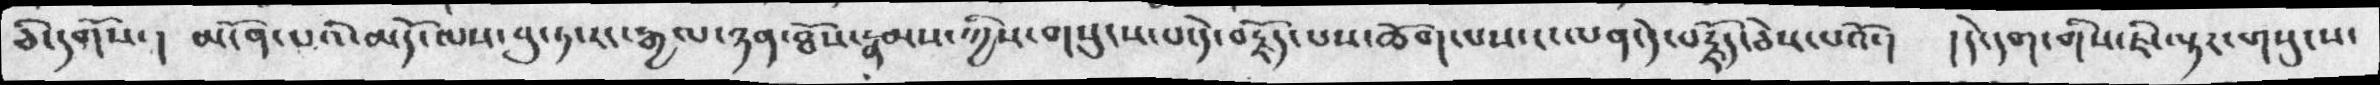ཅི་དགོས་ ། མངོན་པའི་མདོ་ལས་བུ་ཏ་རང་རྒྱལ་ཉན་ཐོས་རྣམས་ཀྱིས་གསུངས་པ་དེ་བརྗོད་པས་ཆོག་པས་ང་ལན་དེ་བརྗོད་ཅེས་པའོ་།   །དེ་དག་གིས་ཇི་ལྟར་གསུངས་
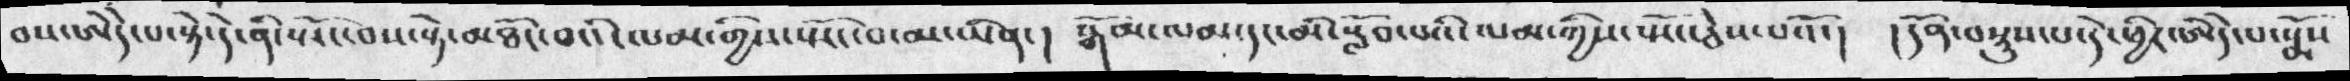བས་ཨེདེ་པ་སྟེ་དེ་ནི་སྤོང་བས་སྟེ་མཐོང་བའི་ལམ་གྱིས་སྤོང་བ་མ་ཡིན་ ། སྒོམ་ལམ་དང་མི་སློབ་པའི་ལམ་ཀྱིས་སྤོང་ཅེས་པའོ་།  །དོན་བསྟུས་པ་དེ་ཕྱིར་ཨེདེ་པ་སྨོས་
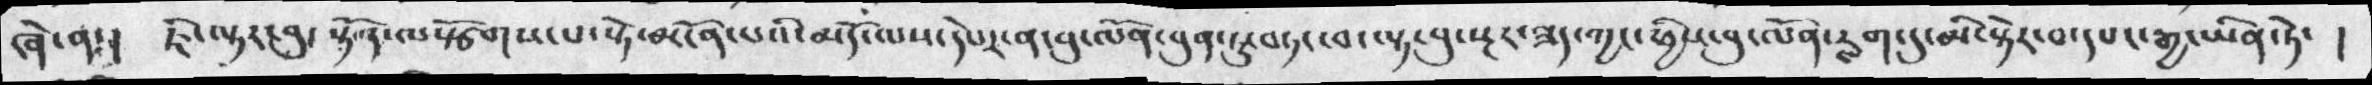ཞེ་ན་། ཇི་ལྟར་བུ་ སྟོན་ལསྩོགས་པ་སྟེ་མངོན་པའི་མདོ་ལས་དཔེར་ན་བུ་ལོན་བུན་ཏུ་བཏང་བ་ལྟ་བུ་སྔར་ཟད་ཀྱང་ཕྱིས་བུ་ལོན་རླག་དུ་མི་སྟེར་བ་དཔང་རྒྱ་ཡིན་ཏེ་ །
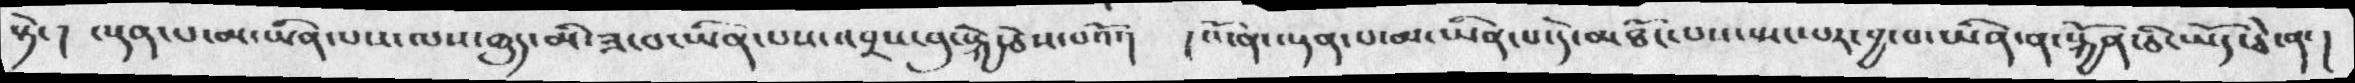སྟེ་། ལྡན་པ་མ་ཡིན་པས་ལས་ཆུད་མི་ཟ་བ་ཡིན་པས་འབྲས་བུ་སྐྱེ་ཅེས་པའོ་།   །འོ་ན་ལྡན་པ་མ་ཡིན་པ་དེ་མཐོང་པས་སྤང་པར་བྱ་བ་ཡིན་ན་སྐྱོན་ཅི་ཡོད་ཅེ་ན་།
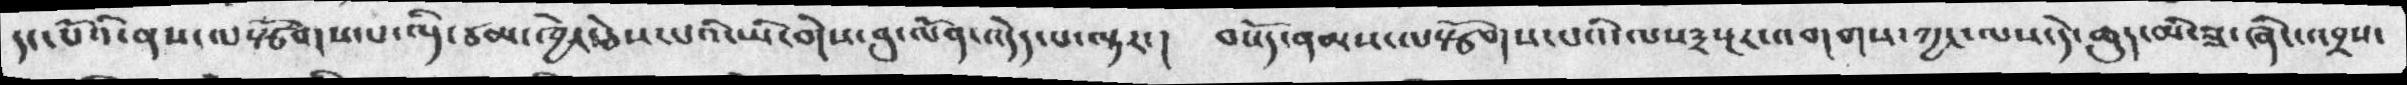དང་པོའི་ནས་ལསྩོགས་པ་འདི་ཙམ་ཁྱེད་ཅེས་པའི་ཡི་གེས་བུ་ལོན་འདེད་པ་ལྟར་།  བསོད་ནམས་ལསྩོགས་པའི་ལས༣སྔར་འགགས་ཀྱང་ལས་དེ་ཆུད་མི་ཟ་ཞིང་འབྲས་
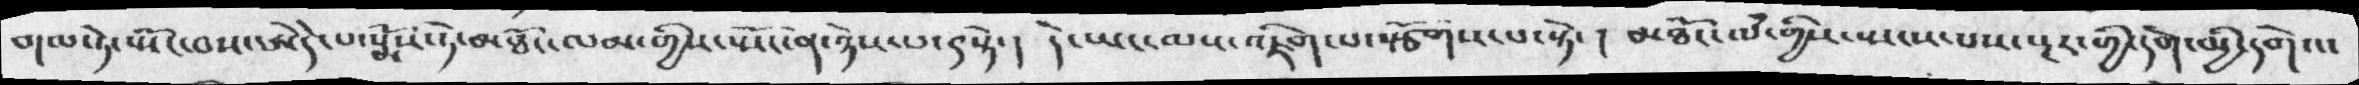གལ་ཏེ་སྤོང་བས་ཨེདེ་པ་སྨོས་ཏེ་མཐོང་ལམ་གྱིས་སྤོང་ན་ཉེས་པ་༩སྟེ་།  དེ་ཡང་ལས་འཇིག་པ་སྩོགས་པ་སྟེ་ ། མཐོང་ལཾ་གྱིས་སྤང་པས་སྔར་གྱི་དགེ་མྱི་དགེའ་
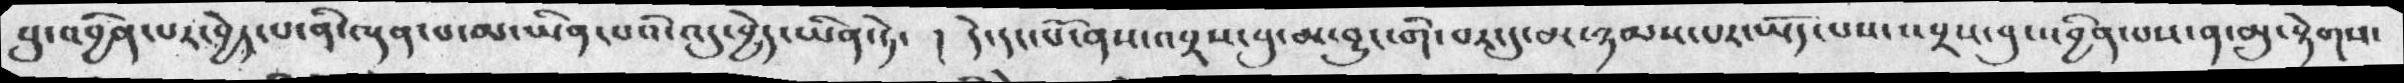བུ་འབྱིན་པར་བྱེད་པ་ནི་ལྡན་པ་ཡིན་པའི་འདུ་བྱེད་ཡིན་ཏེ་།  ། དེ་དང་པོ་ནས་འབྲས་བུ་མ་བྱུང་གི་བར་དུ་མ་ཉམས་པར་ཡོད་པས་འབྲས་བུ་འབྱིན་པས་ན་མུ་སྟེགས་
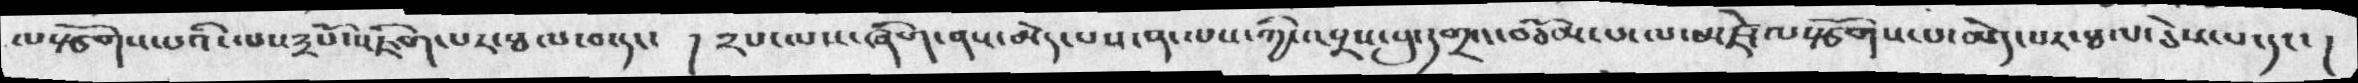ལསྩོགས་པའི་ལས༣པོ་འཇིག་པར་ཐལ་བ་དང་། །༢པ་ལས་ཞིག་ནས་མེད་པས་ན་ལས་ཀྱི་འབྲས་བུ་དགྲའ་བཅོམ་པ་ལ་མཛེ་ལསྩོགས་པ་མེད་པར་ཐལ་ཅེས་པ་དང་ །
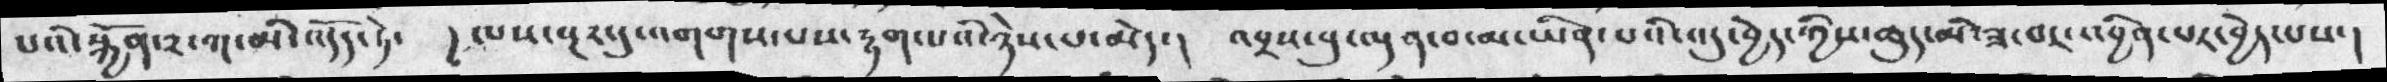པའི་སྐྱོན་༢་ཀ་མི་འདོད་ཏེ་  །ལས་སྔར་དུ་འགགས་པས་རྟག་པའི་ཉེས་པ་མེད་། འབྲས་བུ་ལྡན་བ་མ་ཡིན་པའི་འདུ་བྱེད་ཀྱིས་ཆུད་མི་ཟ་བར་འབྱིན་པར་བྱེད་པས་།
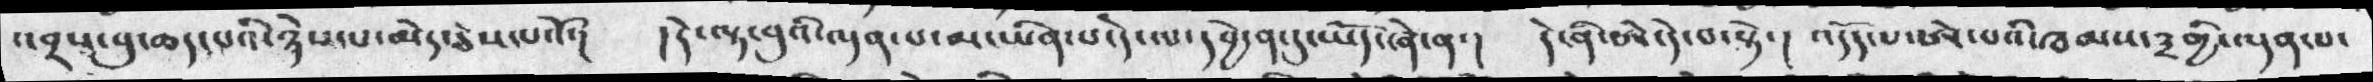འབྲས་བུ་ཆད་པའི་ཉེས་པ་མེད་ཅེས་པའོ་།  །དེ་ལྟ་བུའི་ལྡན་པ་མ་ཡིན་པ་དེ་ལ་དབྱེ་ན་དུ་ཡོད་ཞེ་ན་།   དེ་ནི་ཨེ་དེ་པ་སྟེ་།   འདོད་པ་ཨེ་པའི་ཁམས་༣གྱི་ལྡན་པ་
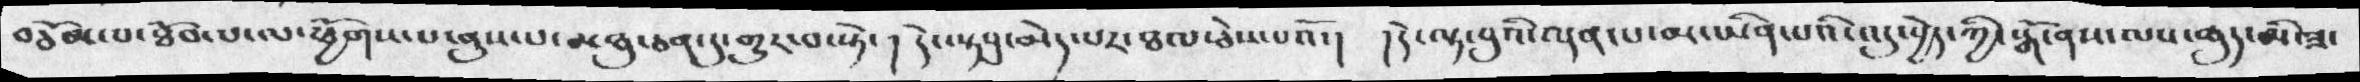བཅོམ་པ་ཐོབ་པ་ལ་ཕྱོགས་པ་ནུས་པ་མཐུ་ཅན་དུ་གྱུར་པ་སྟེ་།  དེ་ལྟ་བུ་མེད་པར་ཐལ་ཅེས་པའོ་།   །དེ་ལྟ་བུའི་ལྡན་པ་མ་ཡིན་པའི་འདུ་བྱེད་ཀྱི་སྒོ་ནས་ལས་ཆུད་མི་ཟ་
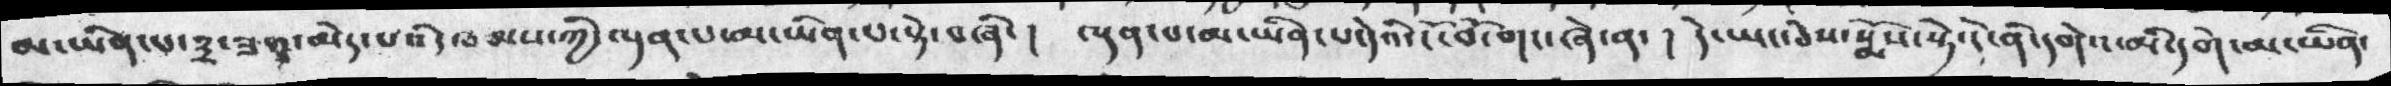མ་ཡིན་པ་༣་ཟག་མེད་པའི་ཁམས་ཀྱི་ལྡན་པ་མ་ཡིན་པ་སྟེ་བཞི་ །  ལྡན་པ་མ་ཡིན་པ་དེའི་ངོ་བོ་གང་ཞེ་ན་ ། དེ་ཡང་ཅེས་སྨོས་སྟེ་དེ་ནི་དགེའ་མི་དགེ་མ་ཡིན་
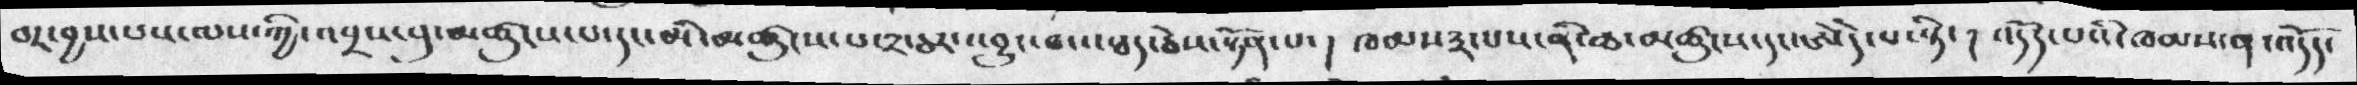བར་བྱས་པས་ལས་ཀྱི་འབྲས་བུ་མཚུངས་པ་དང་མི་མཚུངས་པ་༢་ཅར་འབྱུང་བ་འཐད་ཅེས་སྟོན་པ་ །  ཁམས་༣་པས་ནི་ཆ་མཚུངས་དང་ཨེདེ་པ་སྟེ་ ། འདོད་པའི་ཁམས་ན་འདོད་
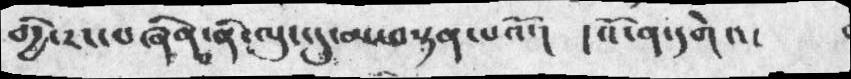གྱི་རང་བཞིན་ནི་ལུང་དུ་མ་བསྟན་པའོ་།   ། འོ་ན་དགེའ་
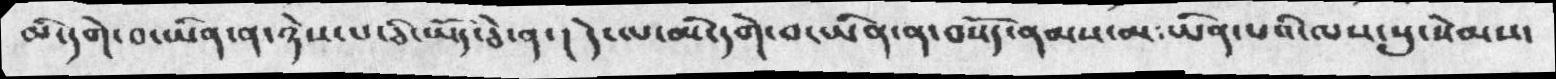མི་དགེ་བ་ཡིན་ན་ཉེས་པ་ཅི་ཡོད་ཅེ་ན་ ། དེ་ལ་མི་དགེ་བ་ཡིན་ན་བསོད་ནམས་མ་ཡིན་པའི་ལས་སུ་སེམས་
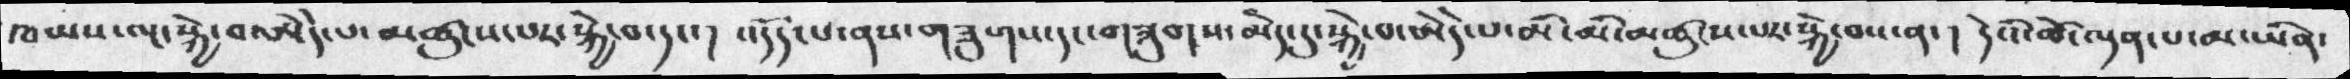ཁམས་ལྔ་སྐྱེ་བ་ཨེདེ་པ་མཚུངས་པར་སྐྱེ་བ་དང་། འདོད་པ་ནས་གཟུགས་དང་གཟུགས་མེད་དུ་སྐྱེ་བ་ཨེདེ་པ་མི་མི་མཚུངས་པར་སྐྱེ་བས་ན་ ། དེའི་ཚེ་ལྡན་པ་མ་ཡིན་
